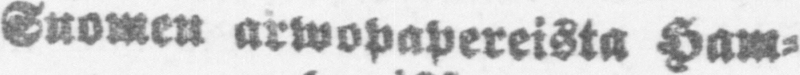Suomen arwopapereista Ham-
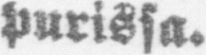purissa.
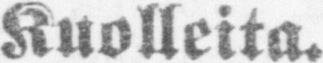Kuolleita.
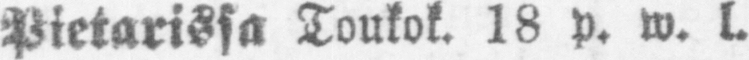Pietarissa Toukok. 18 p. w. l.
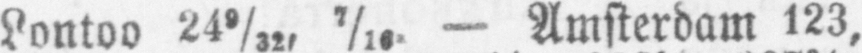Lontoo 24 9/32, 7/16 — Amsterdam 123.
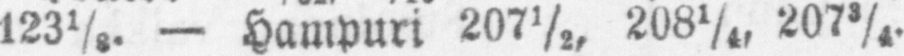123 ⅛ . — Hampuri 207½, 208¼ , 207¾.
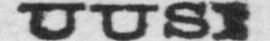UUSI
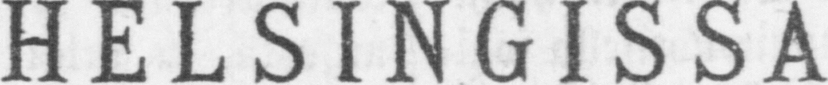HELSINGISSÄ
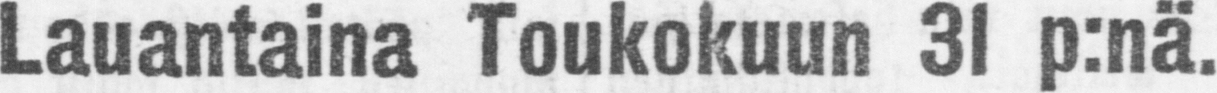Lauantaina Toukokuun 31 p:n ä .
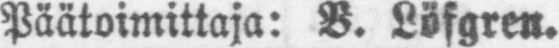Päätoimittaja: B. Löfgren.
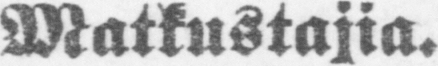Matkustajia.
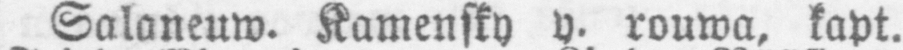Salaneuw. Kamensky y. rouwa, kapt.
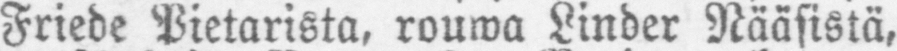Friede Pietarista, rouwa Linder Nääsistä,
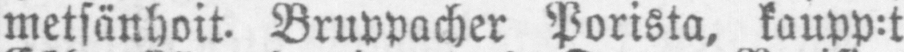metsänhoit. Bruppacher. Porista, kaupp:t
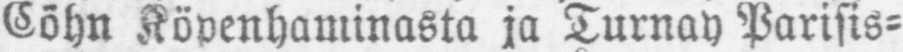Cöhn Köpenhaminasta ja Turnay Parisis-
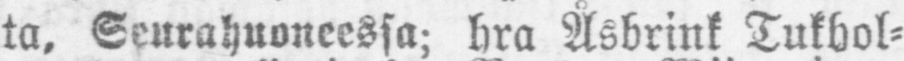ta. Seurahuoneessa; hra Äsbrink Tukhol-
